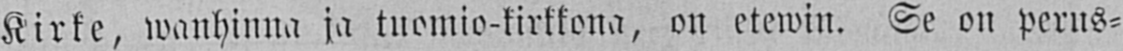Kirke, wanhinna ja tuomio-kirkkona, on etewin. Se on perus-
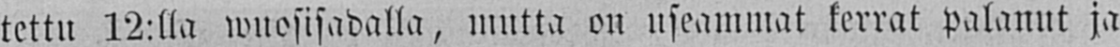tettu 12:lla wuosisadalla, mutta on useammat kerrat palanut ja
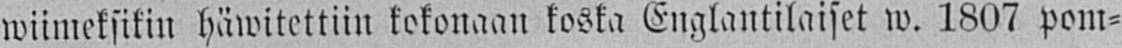wiimeksikin häwitettiin kokonaan koska Englantilaiset w. 1807 pom-
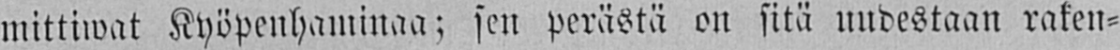mittiwat Kyöpenhaminaa; sen perästä on sitä uudestaan raken-
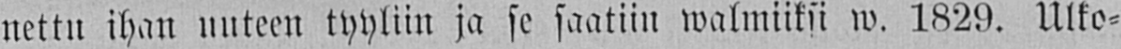nettu ihan uuteen tyyliin ja se saatiin walmiiksi w. 1829. Ulko-
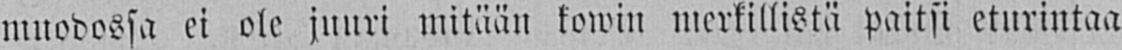muodossa ei ole juuri mitään kowin merkillistä paitsi eturintaa
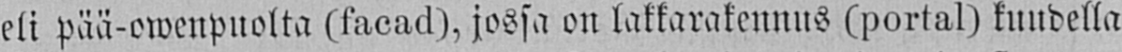eli pää-owenpuolta (facad), jossa on lakkarakennus (portal) kuudella
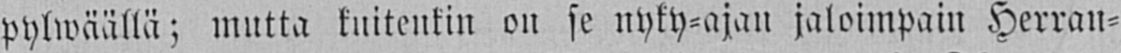pylwäällä; mutta kuitenkin on se nyky-ajan jaloimpain Herran-
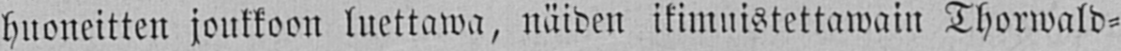huoneitten joukkoon luettawa, näiden ikimuistettawain Thorwald-
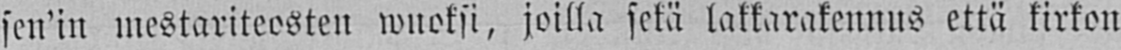sen'in mestariteosten wuoksi, joilla sekä lakkarakennus että kirkon
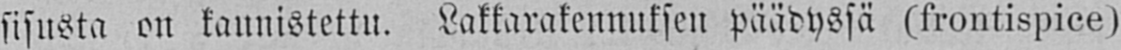sisusta on kaunistettu. Lakkarakennuksen päädyssä (frontispice)
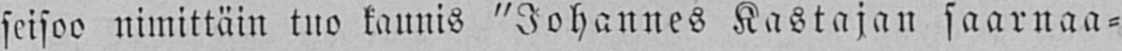seisoo nimittäin tuo kaunis "Johannes Kastajan saarnaa-
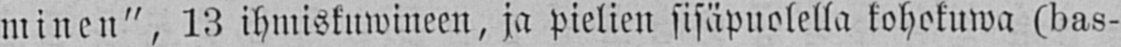minen", 13 ihmiskuwineen, ja pielien sisäpuolella kohokuwa (bas-
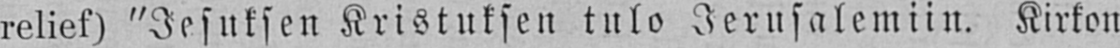relief) "Jesuksen Kristuksen tulo Jerusalemiin. Kirkon
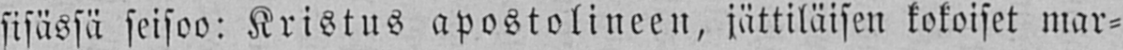sisässä seisoo: Kristus apostolilleen, jättiläisen kokoiset mar-
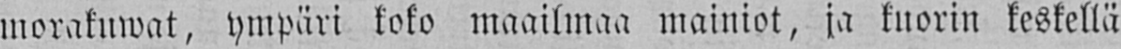inorakuwat, ympäri koko maailmaa mainiot, ja kuorin keskellä
